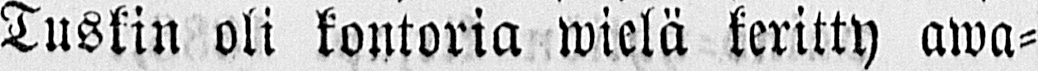Tuskin oli kontoria wielä keritty awa-
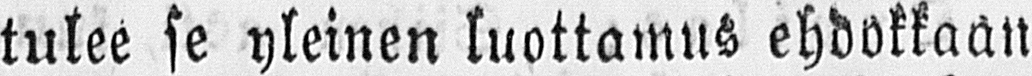tulee se yleinen luottamus ehdokkaan
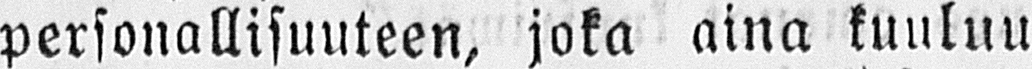personallisuuteen, joka aina kuuluu
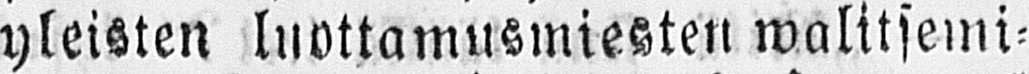yleisten luottamusmiesten walitsemi-
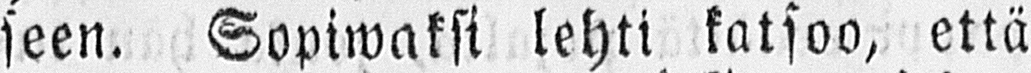seen. Sopiwaksi lehti katsoo, että
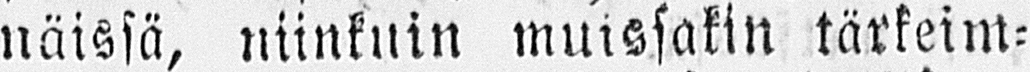näissä, niinkuin muissakin tärkeim-
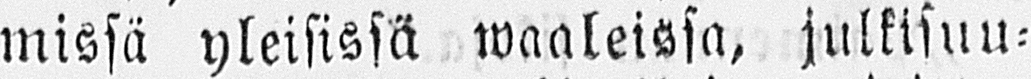missä yleisissä waaleissa, julkisuu-
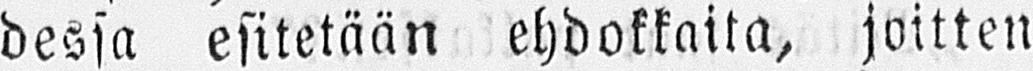dessa esitetään ehdokkaita, joitten
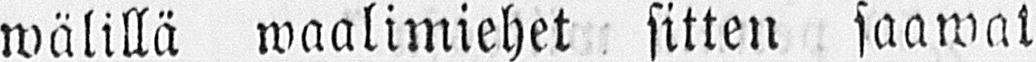wälillä waalimiehet sitten saawat
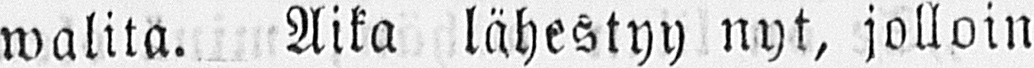walita. Aika lähestyy nyt, jolloin
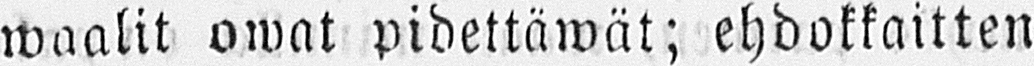waalit owat pidettäwät; ehdokkaitten
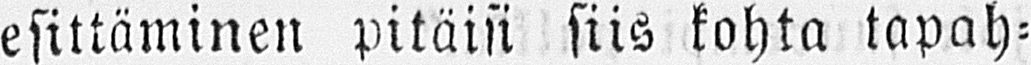esittäminen pitäisi siis kohta tapah-
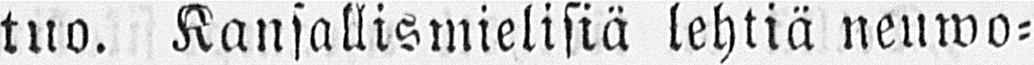tua. Kansallismielisiä lehtiä neuwo-
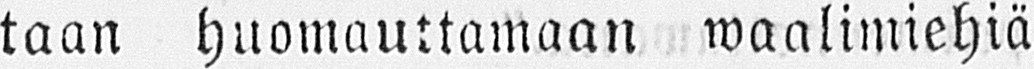taan huomauttamaan waalimiehiä
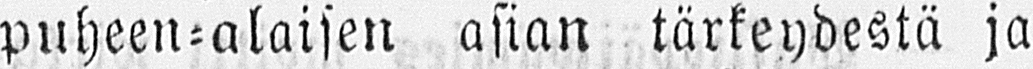puheen-alaisen asian tärkeydestä ja
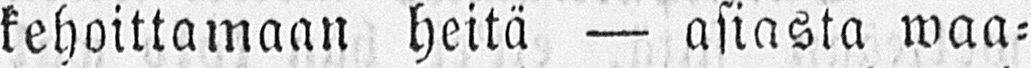kehoittamaan heitä — asiasta waa-
